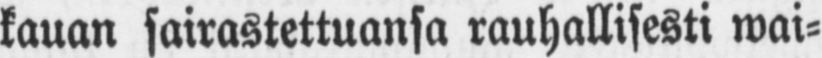kauan sairastettuansa rauhallisesti wai-
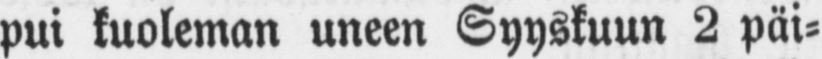pui kuoleman uneen Syyskuun 2 päi-
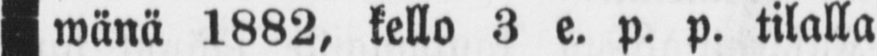wänä 1882, kello 3 e. p. p. tilalla
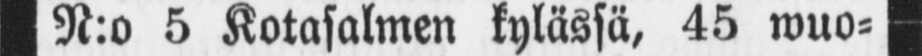N:o 5 Kotasalmen kylässä, 45 wuo-
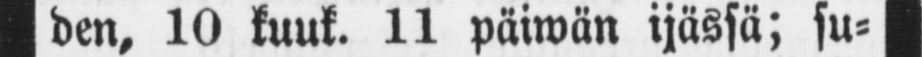den, 10 kuuk. 11 päiwän ijässä; su-
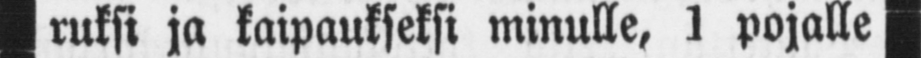ruksi ja kaipaukseksi minulle, 1 pojalle
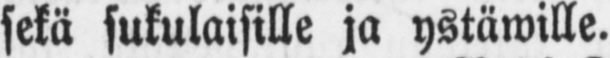sekä sukulaisille ja ystäwille.
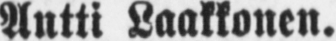Antti Laakkonen.
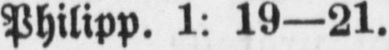Philipp. 1: 19—21.
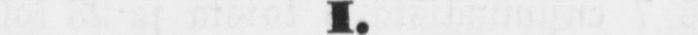I.
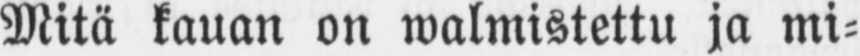Mitä kauan on walmistettu ja mi-
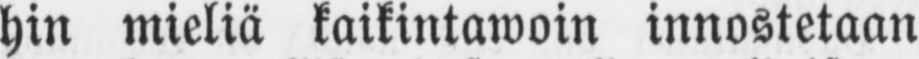hin mieliä kaikintawoin innostetaan
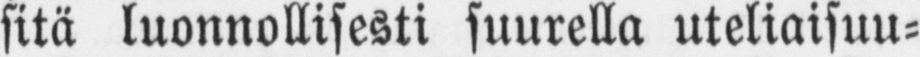sitä luonnollisesti suurella uteliaisuu-
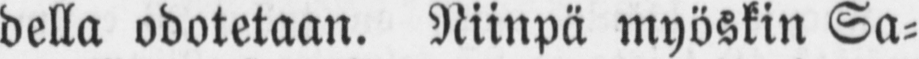della odotetaan. Niinpä myöskin Sa-
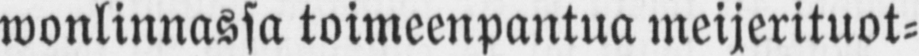wonlinnassa toimeenpantua meijerituot-
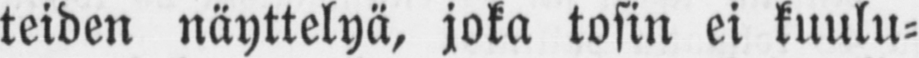teiden näyttelyä, joka tosin ei kuulu-
